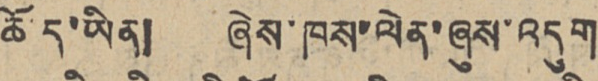ཆོད་ཡིན། ཞེས་ཁས་ལེན་ཞུས་འདུག
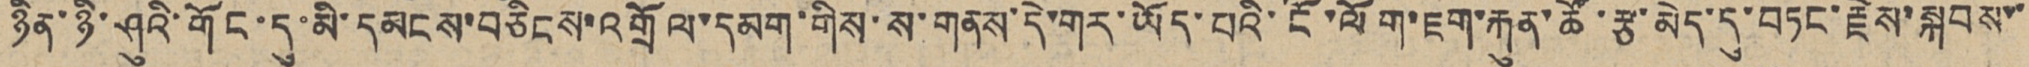ཉིན་ཉི་ཤུའི་གོང་དུ་མི་དམངས་བཅིངས་འགྲོལ་དམག་གིས་ས་གནས་དེ་གར་ཡོད་པའི་ངོ་ལོག་ཇག་རྐུན་ཚོ་རྩ་མེད་དུ་བཏང་རྗེས་སྐབས་་
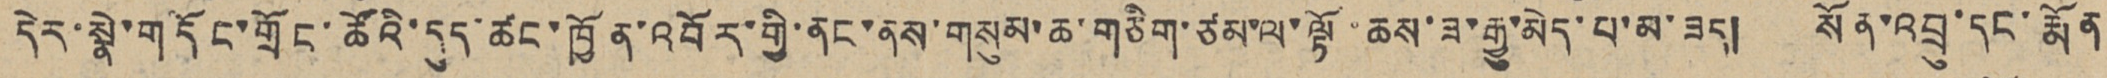དེར་སྣེ་གདོང་གྲོང་ཚོའི་དུད་ཚང་ཁྱོན་འབོར་གྱི་ནང་ནས་གསུམ་ཆ་གཅིག་ཙམ་ལ་ལྟོ་ཆས་ཟ་རྒྱུ་མེད་པ་མ་ཟད། སོན་འབྲུ་དང་རྨོན
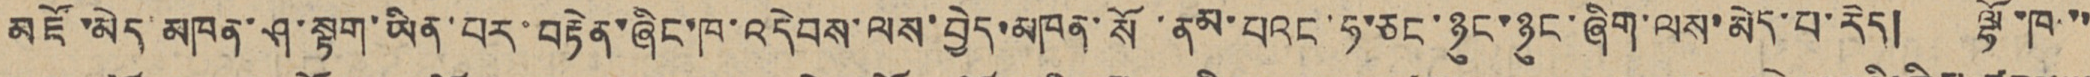མཛོ་མེད་མཁན་ཤ་སྟག་ཡིན་པར་བརྟེན་ཞིང་ཁ་འདེབས་ལས་བྱེད་མཁན་སོ་ནམ་པའང་ཧ་ཅང་ཉུང་ཉུང་ཞིག་ལས་མེད་པ་རེད། ལྷོ་ཁ་་
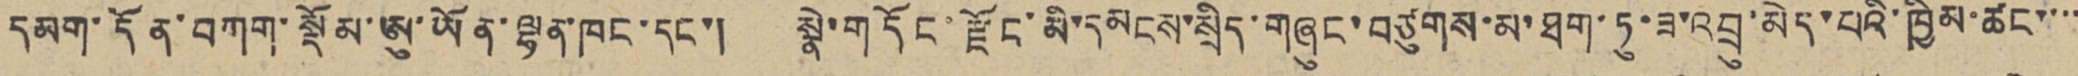དམག་དོན་བཀག་སྡོམ་ཨུ་ཡོན་ལྷན་ཁང་དང་། སྣེ་གདོང་རྫོང་མི་དམངས་སྲིད་གཞུང་བཙུགས་མ་ཐག་ཏུ་ཟ་འབྲུ་མེད་པའི་ཁྱིམ་ཚང་་་་་
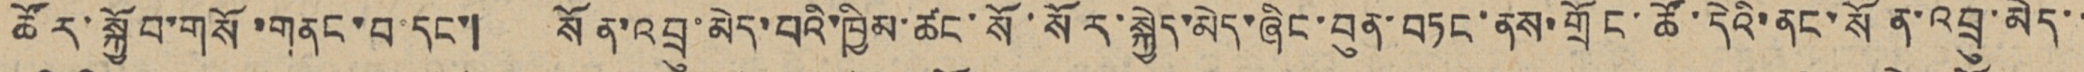ཚོར་སྐྱོབ་གསོ་གནང་བ་དང་། སོན་འབྲུ་མེད་པའི་ཁྱིམ་ཚང་སོ་སོར་སྐྱེད་མེད་ཞིང་བུན་བཏང་ནས་གྲོང་ཚོ་དེའི་ནང་སོན་འབྲུ་མེད་་
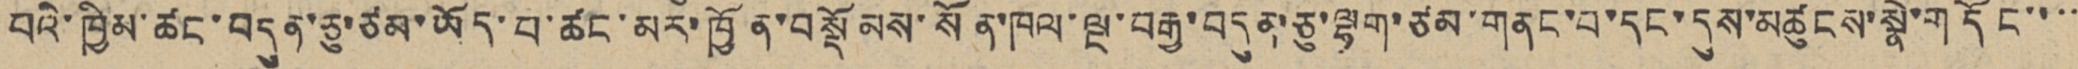པའི་ཁྱིམ་ཚང་བདུན་ཅུ་ཙམ་ཡོད་པ་ཚང་མར་ཁྱོན་བསྡོམས་སོན་ཁལ་ལྔ་བརྒྱ་བདུན་ཅུ་ལྷག་ཙམ་གནང་བ་དང་དུས་མཚུངས་སྣེ་གདོང་་་་་
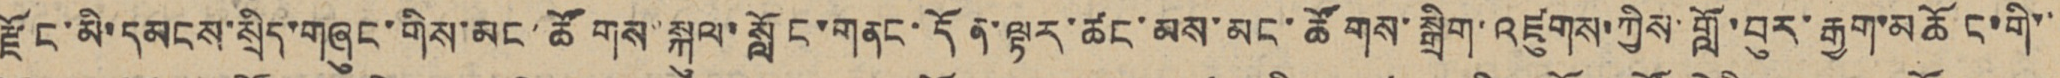རྫོང་མི་དམངས་སྲིད་གཞུང་གིས་མང་ཚོགས་སྐུལ་སློང་གནང་དོན་ལྟར་ཚང་མས་མང་ཚོགས་སྒྲིག་འཛུགས་ཀྱིས་གློ་བུར་རྒྱག་མཆོང་གི་་་
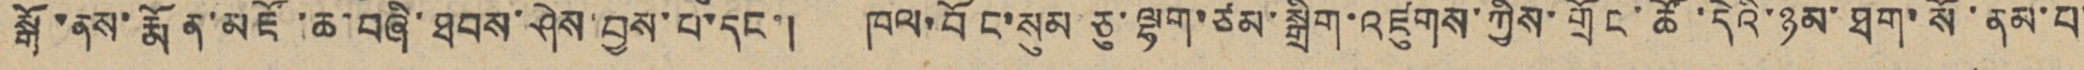སྒོ་ནས་རྨོན་མཛོ་ཆ་བཞི་ཐབས་ཤེས་བྱས་པ་དང་། ཁལ་བོང་སུམ་ཅུ་ལྷག་ཙམ་སྒྲིག་འཛུགས་ཀྱིས་གྲོང་ཚོ་དེའི་ཉམ་ཐག་སོ་ནམ་པ་
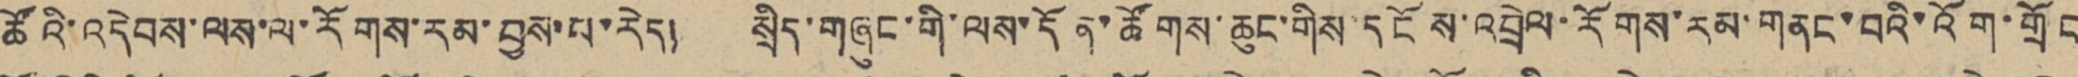ཚོའི་འདེབས་ལས་ལ་རོགས་རམ་བྱས་པ་རེད། སྲིད་གཞུང་གི་ལས་དོན་ཚོགས་ཆུང་གིས་དངོས་འབྲེལ་རོགས་རམ་གནང་བའི་འོག་གྲོང
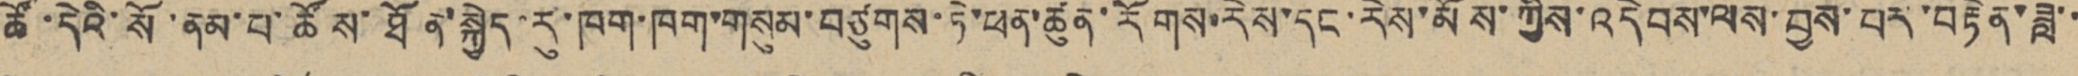ཚོ་དེའི་སོ་ནམ་པ་ཚོས་ཐོན་སྐྱེད་རུ་ཁག་ཁག་གསུམ་བཙུགས་ཏེ་ཕན་ཚུན་རོགས་རེས་དང་རེས་མོས་ཀྱིས་འདེབས་ལས་བྱས་པར་བརྟེན་ཟླ་་
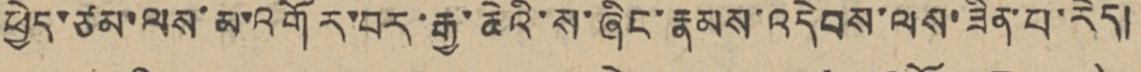ཕྱེད་ཙམ་ལས་མ་འགོར་བར་རྒྱ་ཆེའི་ས་ཞིང་རྣམས་འདེབས་ལས་ཟིན་པ་རེད།
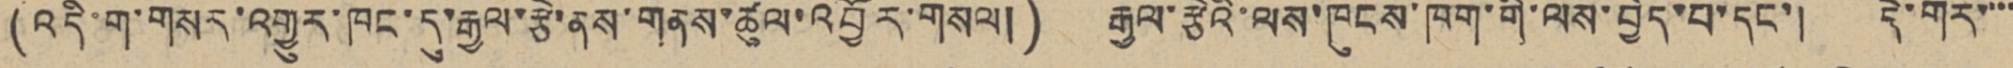(འདི་ག་གསར་འགྱུར་ཁང་དུ་རྒྱལ་རྩེ་ནས་གནས་ཚུལ་འབྱོར་གསལ།) རྒྱལ་རྩེའི་ལས་ཁུངས་ཁག་གི་ལས་བྱེད་པ་དང་། དེ་གར་་་་
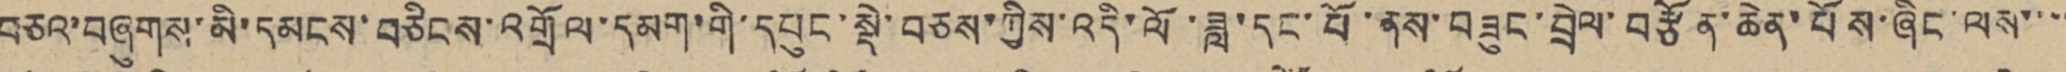བཅའ་བཞུགས་མི་དམངས་བཅིངས་འགྲོལ་དམག་གི་དཔུང་སྡེ་བཅས་ཀྱིས་འདི་ལོ་ཟླ་དང་པོ་ནས་བཟུང་བྲེལ་བརྩོན་ཆེན་པོས་ཞིང་ལས་་་་
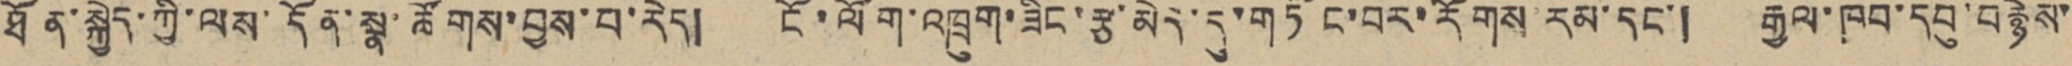ཐོན་སྐྱེད་ཀྱི་ལས་དོན་སྣ་ཚོགས་བྱས་པ་རེད། ངོ་ལོག་འཁྲུག་ཟིང་རྩ་མེད་དུ་གཏོང་བར་རོགས་རམ་དང་། རྒྱལ་ཁབ་དབུ་བརྙེས་་
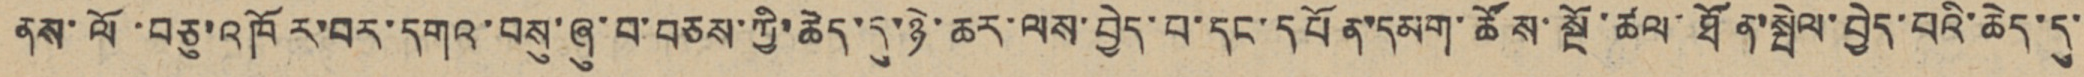ནས་ལོ་བཅུ་འཁོར་བར་དགའ་བསུ་ཞུ་བ་བཅས་ཀྱི་ཆེད་དུ་ཉེ་ཆར་ལས་བྱེད་པ་དང་དཔོན་དམག་ཚོས་སྔོ་ཚལ་ཐོན་སྤེལ་བྱེད་པའི་ཆེད་དུ་་
